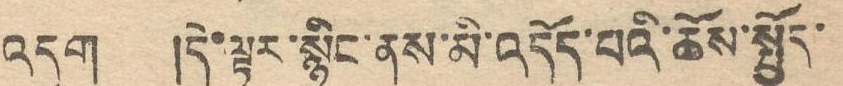འདུག །དེ་ལྟར་སྙིང་ན་སྨི་འདོད་པའི་ཆོས་སྤྱོད་
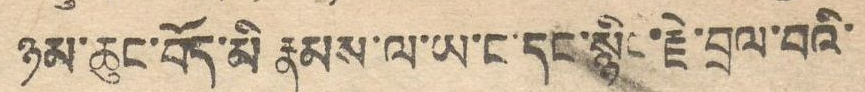ཉམ་ཆུང་བོད་མི རྣམས་ལ་ཡང་ང་དང་སྙིང་རྗེ་བྲལ་བའི་
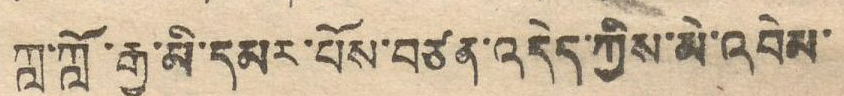ཀླ་ཀློ་རྒྱ་མི་དམར་པོས་བཙན་འདེད་ཀྱིས་མེ་འབེམ་
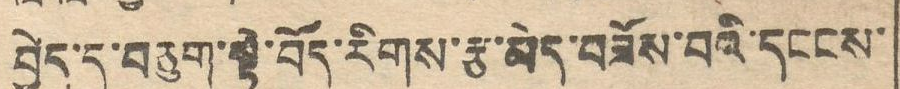བྱེད་དུ་བཅུག་སྟེ་བོད་རིགས་རྩ་མེད་བཟོས་བའི་དངངས་
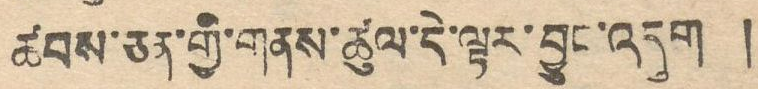ཚབས་ཅན་གྱི་གནས་ཚུལ་དེ་ལྟར་བྱུང་འདུག །
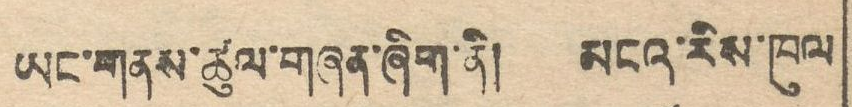ཡང་གནས་ཚུལ་གཞན་ཞིག་ནི། མངའ་རིས་ཁུལ
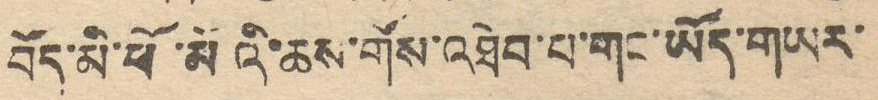བོད་མི་ཕོ་མོའི་ཆས་གོས་འཐེབ་པ་གང་ཡོད་གཡར་
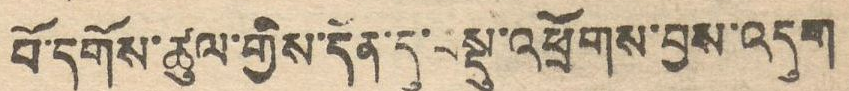བོ་དགོས་ཚུལ་གྱིས་དོན་དུ་བསྡུ་འཕྲོགས་བྱས་འདུག
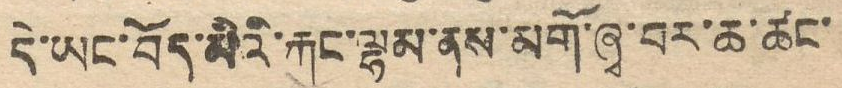དེ་ཡང་བོད་མིའི་རྐང་ལྷམ་ནས་མགོ་ཞྭ་བར་ཆ་ཚང་
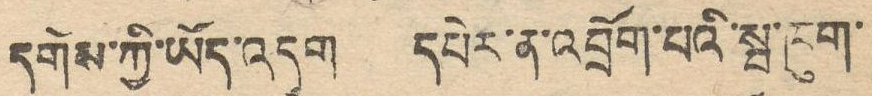དགོས་ཀྱི་ཡོད་འདུག དཔེར་ན་འབྲོག་པའི་སྦ་ཁུག་
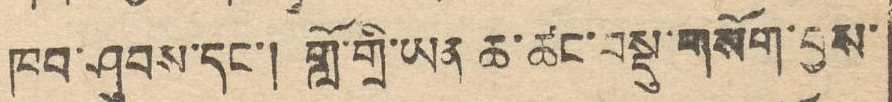ཁབ་ཤུགས་དང་། གློ་གྲི་ཡན ཆ་ཚང་བསྡུ་གསོག་བྱས་
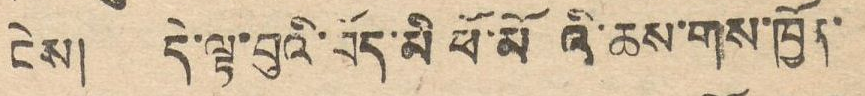ངེས། དེ་ལྟར་བུའི་བོད་མི་ཕོ་མོའི་ཆས་གོས་ཁྱོན་
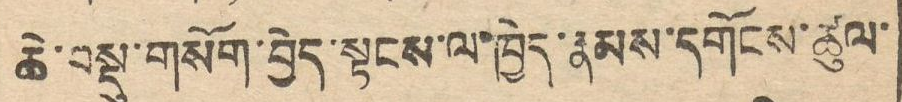ཆེ་བསྡུ་གསག་བྱེད་སྟངས་ལ་ཁྱེད་རྣམས་དགོངས་ཚུལ་
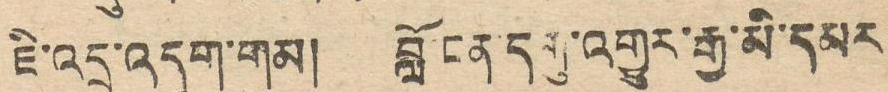ཇི་འདྲ་འདུག་གམ། བློ་ངན་དགུ་འགྱུར་རྒྱ་མི་དམར
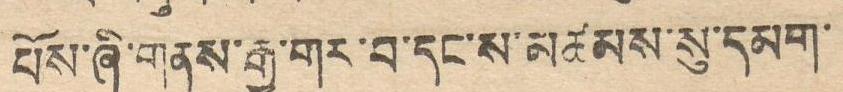པོས་ཞི་གནས་རྒྱ་གར་བ་དང་ས་མཚམས་སུ་དམག་
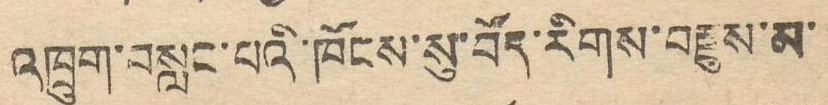འཁྲུག་བསླང་པའི་ཁོངས་སུ་བོད་རིགས་བརྫུས་མ་
